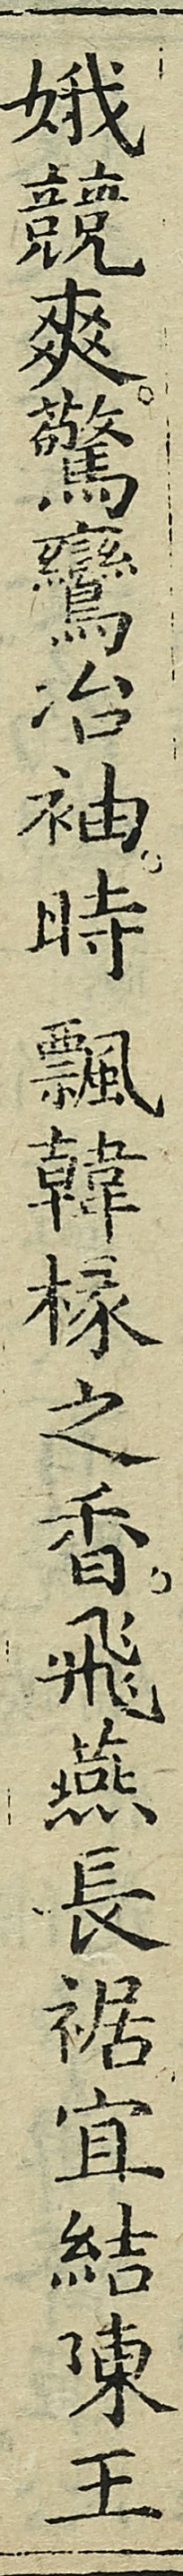娥競爽驚鸞冶袖時飄韓椽之香飛燕長裾宜結陳王
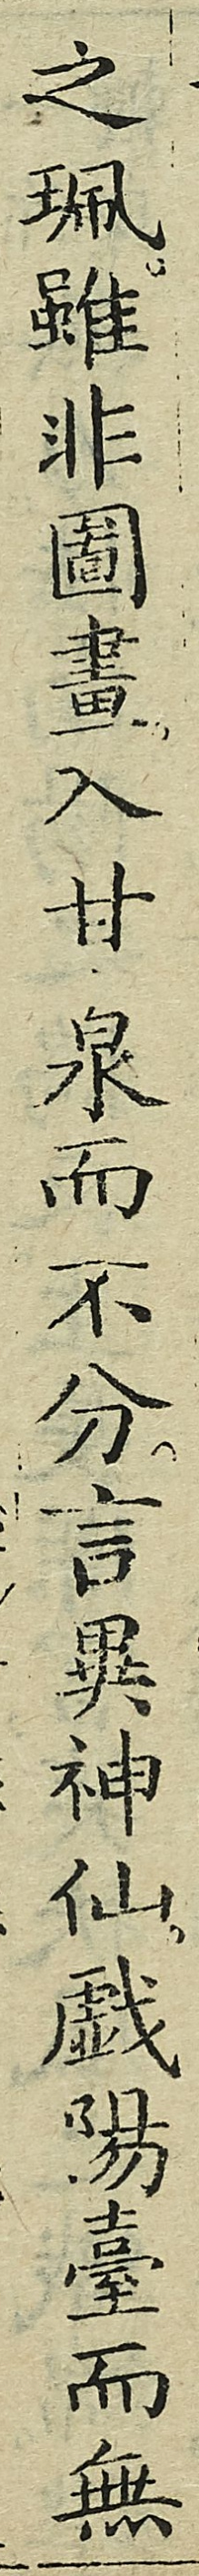之珮雖非圖畫入甘泉而不分言異神仙戲陽臺而無
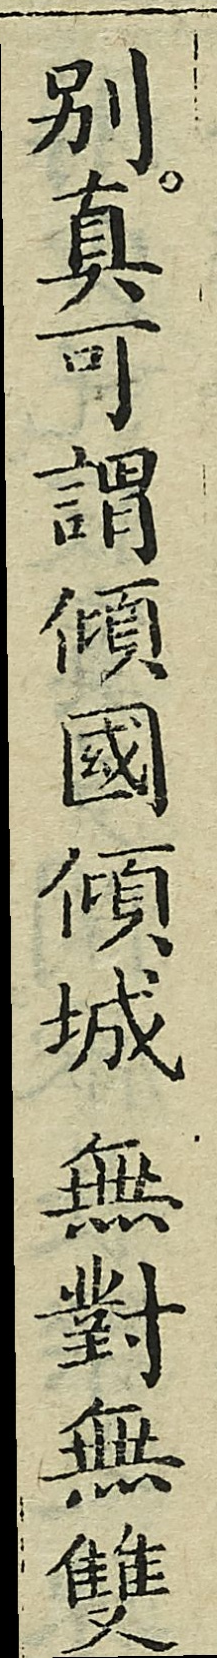別真可謂傾國傾城無對無雙
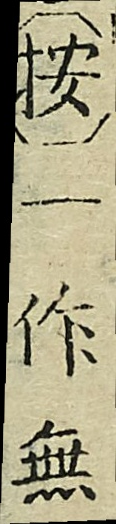（按）一作無
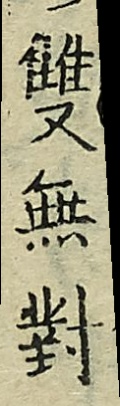雙無對
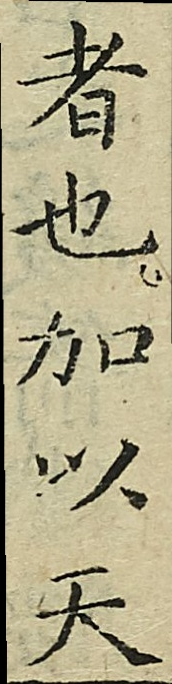者也加以天
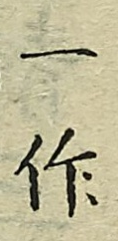一作
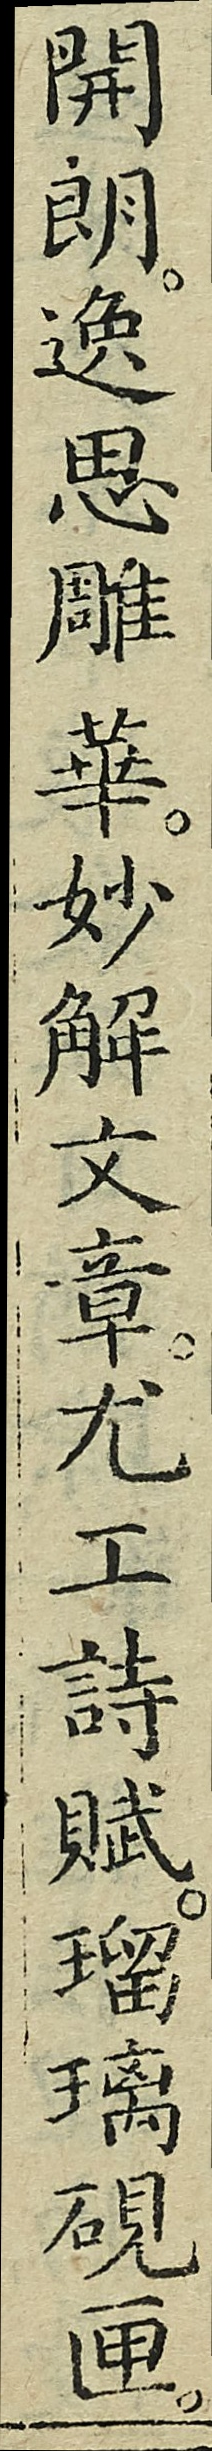開朗逸思雕華妙解文章尤工詩賦瑠璃硯匣
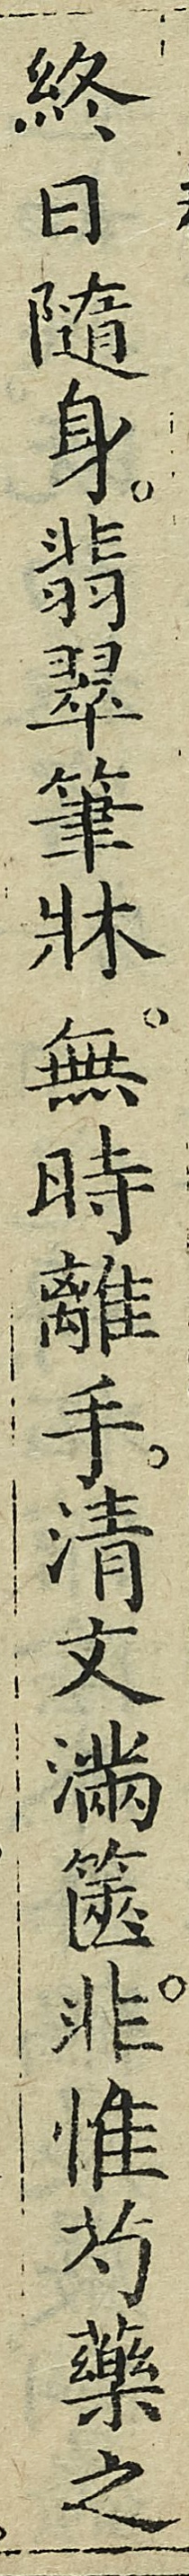終日隨身翡翠筆牀無時離手清文滿篋非惟芍藥之
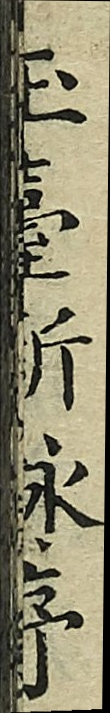玉臺新詠序
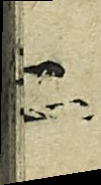二
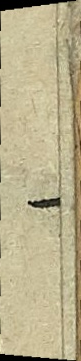一
